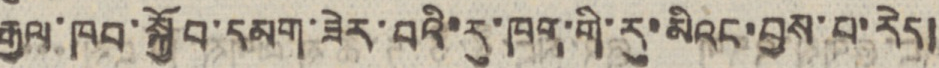རྒྱལ་ཁབ་སྐྱོབ་དམག་ཟེར་བའི་རུ་ཀཧག་གི་རུ་མིའང་བྱས་པ་རེད།
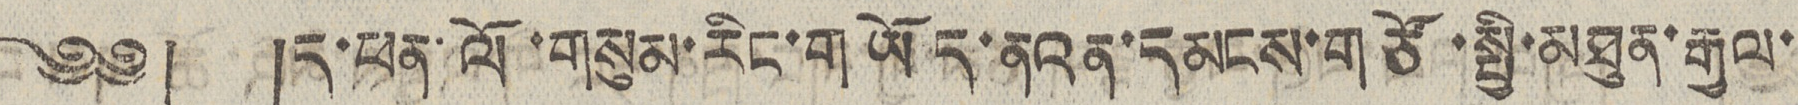༄༅། །ད་ཕན་ལོ་གསུམ་རིང་གཡོད་ནའན་དམངས་གཙོ་སྤྱི་མཐུན་རྒྱལ་
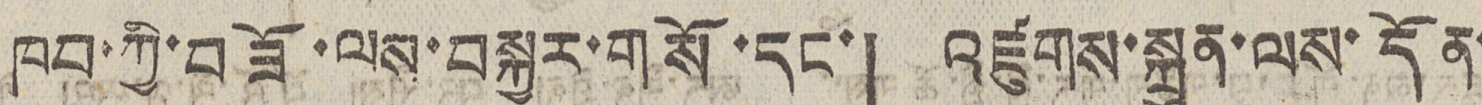ཁབ་ཀྱི་བཟོ་ལས་བསྐྱར་གསོ་དང་། འཛུགས་སྐྲུན་ལས་དོན་
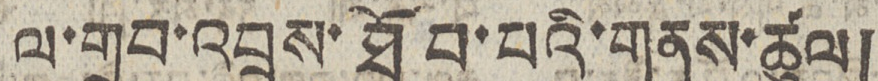ལ་གྲུབ་འབྲས་ཐོབ་པའི་གནས་ཚུལ།
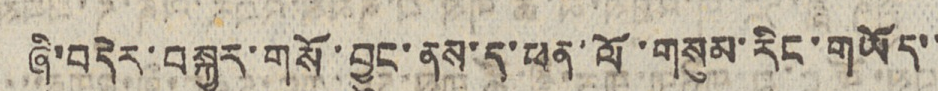ཞི་བདེར་བསྐྱར་གསོ་བྱུང་ནས་ད་ཕན་ལོ་གསུམ་རིང་གཡོད་་
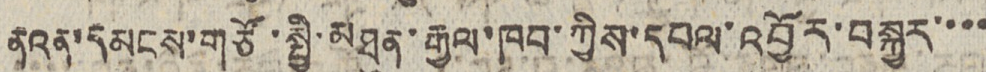ནའན་དམངས་གཙོ་སྤྱི་མཐུན་རྒྱལ་ཁབ་ཀྱིས་དབལ་འབྱོར་བསྐྱར་་་་
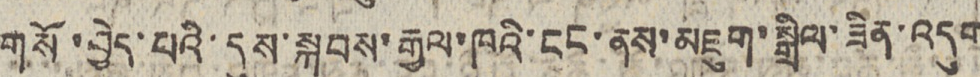གསོ་བྱེད་པའི་དུས་སྐབས་རྒྱལ་ཁའི་ངང་ནས་མཇུག་སྒྲིལ་ཟིན་འདུག
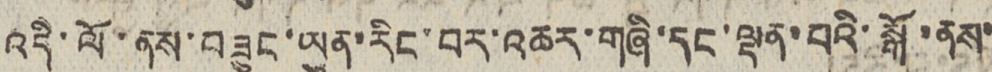འདི་ལོ་ནས་བཟུང་ཡུན་རིང་བར་འཆར་གཞི་དང་ལྡན་པའི་སྒོ་ནས་
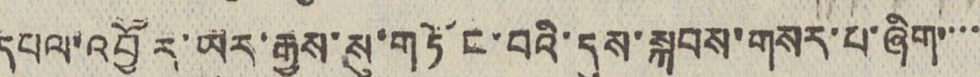དཔལ་འབྱོར་ཡར་རྒྱས་སུ་གཏོང་བའི་དུས་སྐབས་གསར་པ་ཞིག་་་་
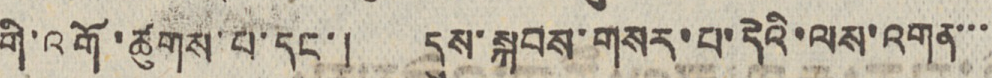གི་འགོ་ཚུགས་པ་དང་། དུས་སྐབས་གསར་པ་དེའི་ལས་འགན་་་
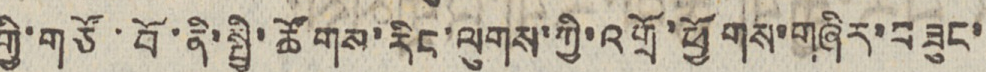གྱི་གཙོ་བོ་ནི་སྤྱི་ཚོགས་རིང་ལུགས་ཀྱི་འགྲོ་ཕྱོགས་གཞིར་བཟུང་
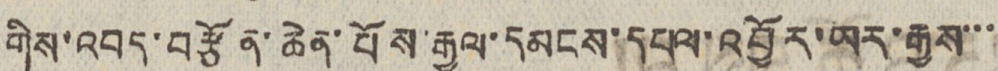གིས་འབད་བརྩོན་ཆེན་པོས་རྒྱལ་དམངས་དཔལ་འབྱོར་ཡར་རྒྱས་་་
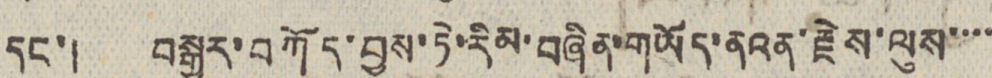དང་། བསྒྱུར་བཀོད་བྱས་ཏེ་རིམ་བཞིན་གཡོད་ནའན་རྗེས་ལུས་་་་
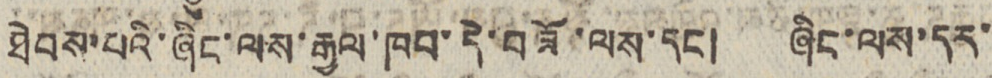ཐེབས་པའི་ཞིང་ལས་རྒྱལ་ཁབ་དེ་བཟོ་ལས་དང། ཞིང་ལས་དར་
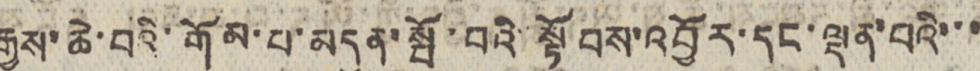རྒྱས་ཆེ་བའི་གོམ་པ་མདུན་སྤོ་བའི་སྟོབས་འབྱོར་དང་ལྡན་པའི་་་
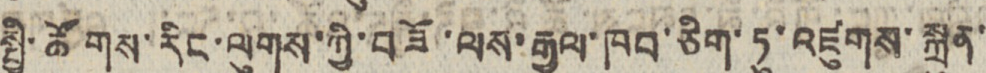སྤྱི་ཚོགས་རིང་ལུགས་ཀྱི་བཟོ་ལས་རྒྱལ་ཁབ་ཅིག་ཏུ་འཛུགས་སྐྲུན་
